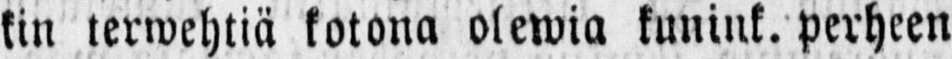kin terwehtiä kotona olewia kunink. perheen
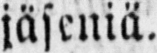jäseniä.
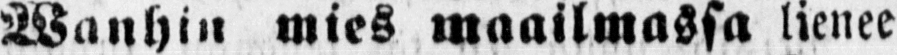Wanhin mies maailmassa lienee
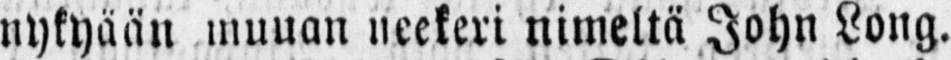nykyään muuan neekeri nimeltä John Long.
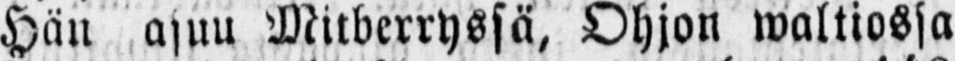Hän asuu Mitberryssä, Ohjon waltiossa
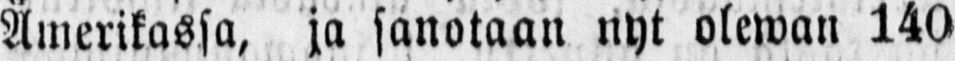Amerikassa, ja sanotaan nyt olewan 140
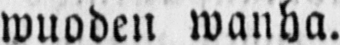wuoden wanha.
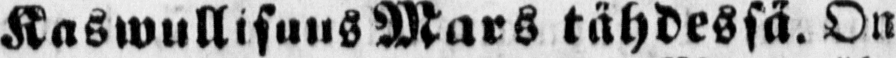Kaswullisuus Mars tähdessä. On
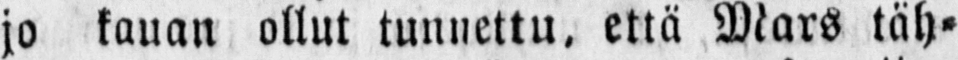jo kauan ollut tunnettu, että Mars täh-
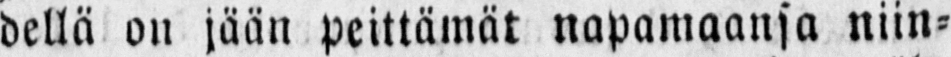dellä on jään peittämät napamaansa niin-
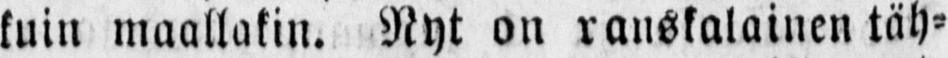kuin maallakin. Nyt on ranskalainen täh-
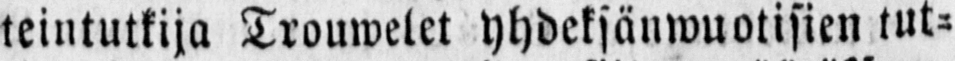teintutkija Trouwelet yhdeksänwuotisien tut-
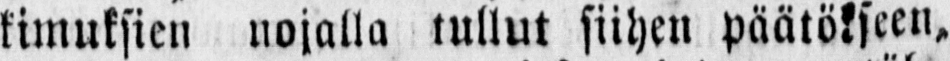kimuksien nojalla tullut siihen päätökseen,
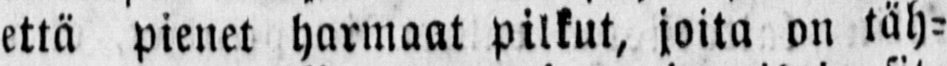että pienet harmaat pilkut, joita on täh-
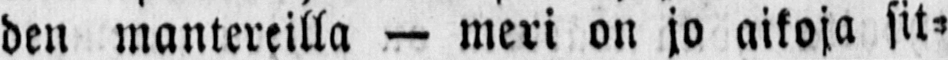den mantereilla — meri on jo aikoja sit-
